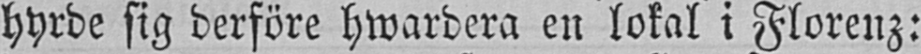hyrde sig derföre hwardera en lokal i Florenz:
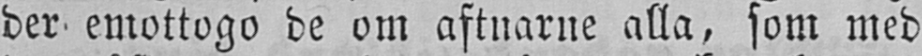der emottogo de om aftnarne alla, som med
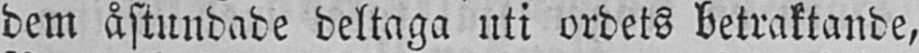dem åstundade deltaga uti ordets betraktande,
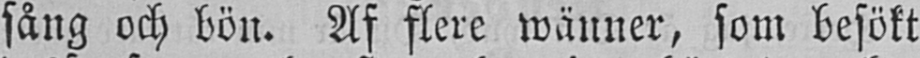sång och bön. Af flere wänner, som besökt
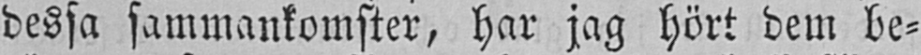dessa sammankomster, har jag hört dem be-
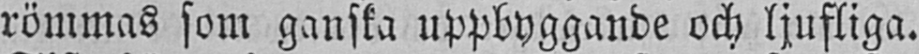römmas som ganska uppbyggande och ljufliga.
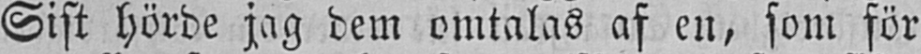Sist hörde jag dem omtalas af en, som för
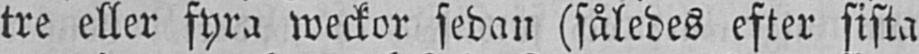tre eller fyra weckor sedan (således efter sista
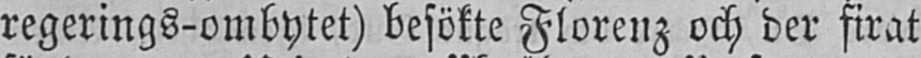regerings-ombytet) besökte Florenz och der firat
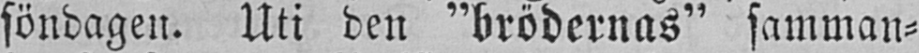söndagen. Uti den "brödernas" samman-
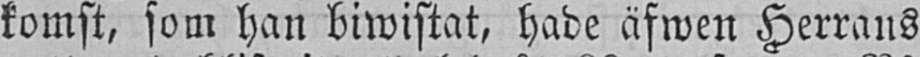komst, som han biwistat, hade äfwen Herrans
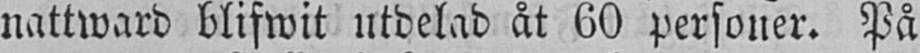nattward blifwit utdelad åt 60 personer. På
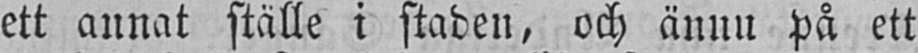ett annat ställe i staden, och ännu på ett
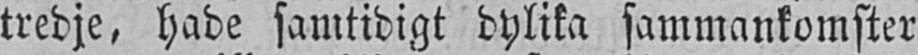tredje, hade samtidigt dylika sammankomster
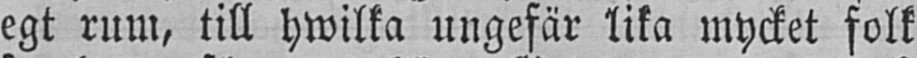egt rum, till hwilka ungefär lika mycket folk
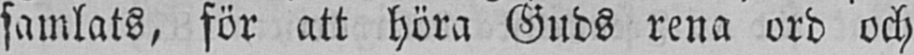samlats, för att höra Guds rena ord och
